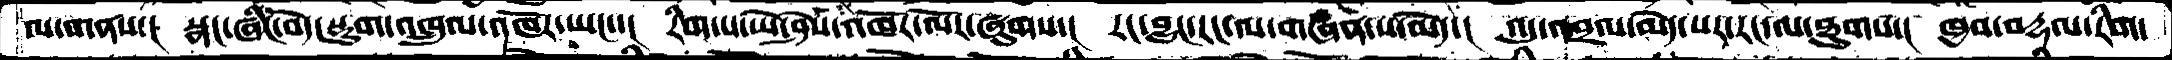ལ་གནས་།  སྣང་ཞིང་བདེ་སྡུག་འཁྲུལ་འཁོར་ཡང་་།  རིག་པ་ཡེ་ཤེས་འཁོར་ལོར་ཞུགས་།  རང་བྱུང་རང་ལ་གཞན་པ་མེད་།  འདུ་འབྲལ་མེད་པར་རང་ལ་ཐུགས་།  ཁྱབ་བརྡལ་རིག་
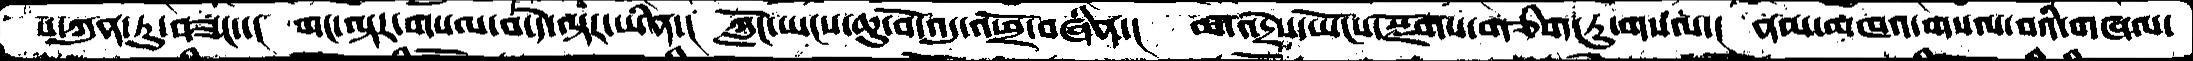པ་ཀུན་ཏུ་བཟང་་།  གང་ལྟར་གསལ་བ་དེ་ལྟར་ཡིན་།  ཀློང་ཡངས་ཆུ་བོ་འདུ་འཕྲོ་བཞིན་།  ཚ་འདྲེས་ཡོངས་སྫོགས་གཅིག་ཏུ་གསལ་།  ནམ་མཁའ་གསལ་བའི་གཞལ་
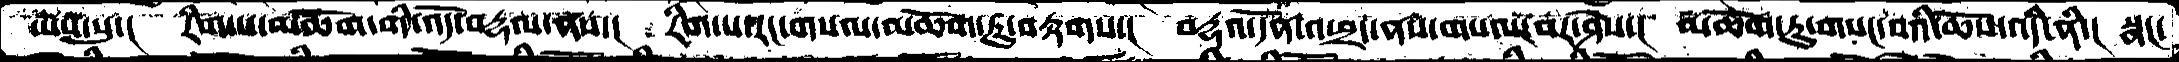ཡས་སུ་།  རིག་པ་མཆོག་གི་འོད་བརྡལ་ནས་།  རིག་པ་རང་གསལ་མཆོག་ཏུ་བརྟགས་།  བརྡའ་དོན་འཕྲད་ནས་གསལ་བར་ཤེས་།  མཆོག་ཏུ་གསང་བའི་ཆོས་འདི་ནི་།  སྣང་
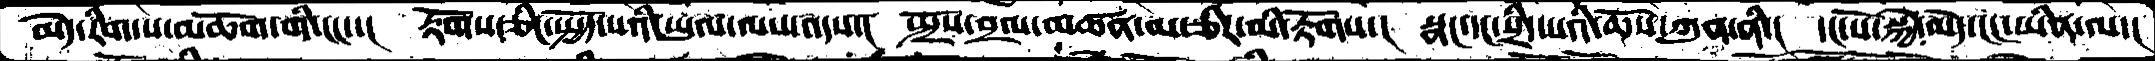མེད་རིག་པ་མཆོག་གི་ངང་་།  རྟོགས་ཅིང་སྤྱོད་པའི་ཡུལ་ལས་འདས་།  སྤྲོས་བྲལ་མཚན་མ་ཅིར་མི་རྟོགས་།  སྣང་དང་སྲིད་པའི་ཆོས་ཀུན་ནི་།  དང་པོ་སྐྱེ་མེད་ངང་ཡིན་ལ་།
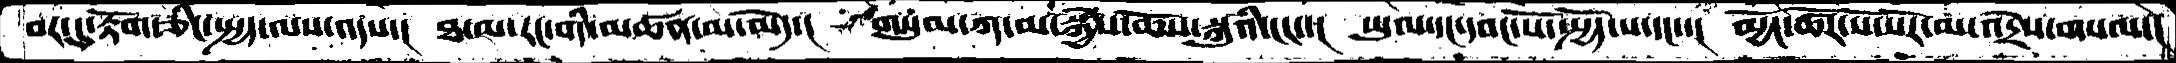བར་དུ་རྟོག་ཅིང་སྤྱད་ལས་འདས་།  ཐ་མ་རང་གི་མཚན་མ་མེད་།  གསུམ་ཀ་མ་སྐྱེས་ཆོས་སྐུའི་ངང་་།  ཡུལ་དང་དབང་པོ་སྤྱོད་པ་དང་་།  མྱོང་ཚོར་སོ་སོར་མ་འདྲེས་གསལ་།
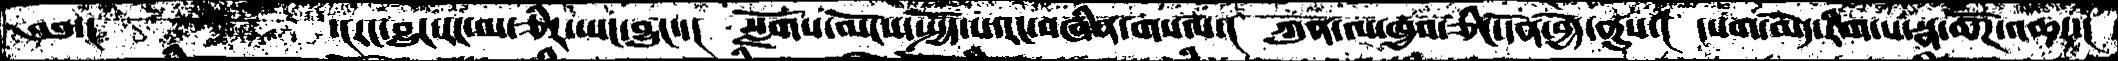༄༅་།  དངརང་འབྱུང་རང་ལ་ཅིར་ཡང་བྱུང་་།  སྫོགས་ལོངས་སྤྱོད་པ་རང་བཞིན་གསལ་།  ཀུན་ལ་ཁྱབ་ཅིང་དོན་བྱེད་ནུས་།  དཔག་མེད་རིག་པ་སྣ་ཚོཌ་འཆར་།
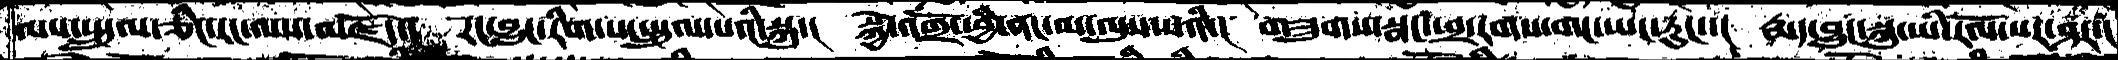ལས་སྤྲུལ་ཅིང་རང་ལས་མཛོད་།  རང་བྱུང་རིག་པ་སྤྲུལ་པའི་སྐུ་།  སྐྱེ་འགྲོ་ཕྱི་ནང་མ་ལུས་པའི་།  གཟུགས་སྣང་ཕྲ་རགས་གང་ཡང་རུང་་།  རྨད་བྱུང་སྐུ་ཡི་རོལ་པར་ཤར་།
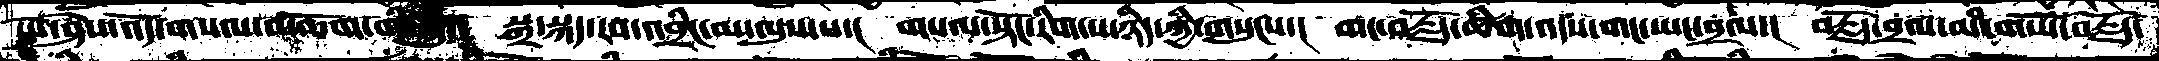ཡེ་ཤེས་འོད་གསལ་མཆོག་གི་སྐུ་།  སྒྲ་སྐད་རབ་འབྲིང་མ་ལུས་པ་།  གསལ་སྟོང་རིག་པ་ཉིད་ཀྱི་གསུངས་།  གང་བརྗོད་ཚིག་འདས་གང་ཡང་བྲལ་།  བརྗོད་བྲལ་མི་གཡོ་བརྗོད་
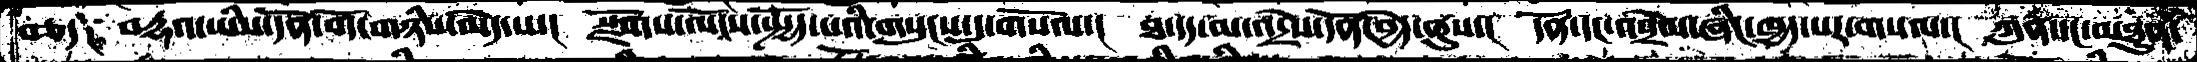བཅད༑  བརྡའ་ཡིས་དོན་གོང་མཉིས་མེད་པ་།  སྫོགས་ལོངས་སྤྱོད་པའི་གསུངས་དུ་གསོལ་།  ཐ་དད་མ་འདྲེས་དོན་བྱེད་ནུས་།  དོན་དང་འབྲེལ་ཞིང་ཁྱད་པར་གསལ་།  ཀུན་དང་མཐུན་
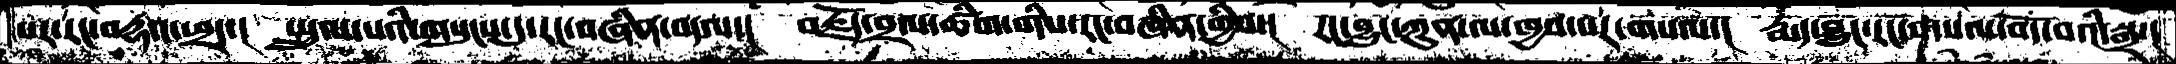པར་རང་བརྡའ་ཕྲད་།  སྤྲུལ་པའི་གསུངས་དུ་རང་བཞིན་བདལ་།  བརྗོད་བྲལ་ཚིག་གིས་རང་བཞིན་གྱིས་།  རང་བྱུང་ཀུན་ལ་ཁྱབ་པར་གསལ་།  རྨད་བྱུང་རང་གསལ་བདོ་བའི་སྒྲ་།
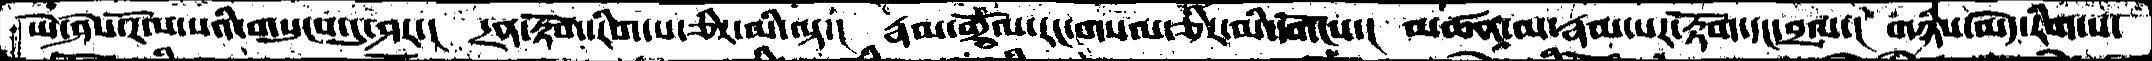ཡེ་ཤེས་རོལ་པའི་གསུངས་དུ་ཤར་།  དྲན་རྟོག་རིག་པ་ཅིར་མི་ལྟ་།  རྣམ་གྲོལ་རང་གསལ་ཅིར་མི་དགོངས་།  མཚན་མ་རྣམ་པར་རྟོག་དང་བྲལ་།  གཉིས་མེད་རིག་པ་
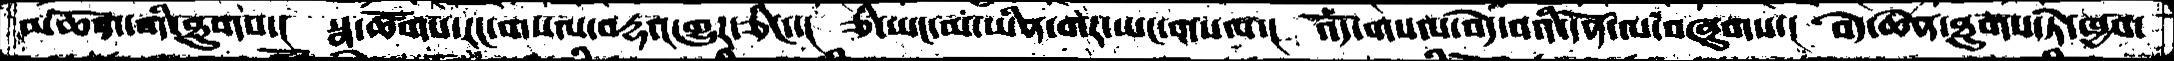མཆོག་གི་ཐུགས་།  སྣ་ཚོགས་རང་གསལ་བརྡའ་གྱུར་ཅིང་།  ཅི་ཡང་མ་ཡིན་གར་ཡང་གསལ་།  འོད་གསལ་བདེ་བའི་དོན་ལ་བཞུགས་།  བདེ་ཆེན་ཐུགས་ཏེ་ཁྱབ་
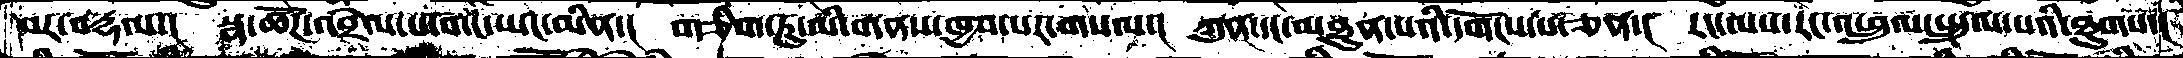བར་བརྡལ་།  སྣ་ཚོཌ་འབྲེལ་པ་གང་ཡང་མིན་།  གཅིག་ཏུ་མི་གནས་ཁྱབ་པར་གསལ་།  ཀུན་དང་མཐུན་པའི་དགོངས་པ་ཅན་།  རང་ལས་རང་འཕྲུལ་སྤྲུལ་པའི་ཐུགས་།
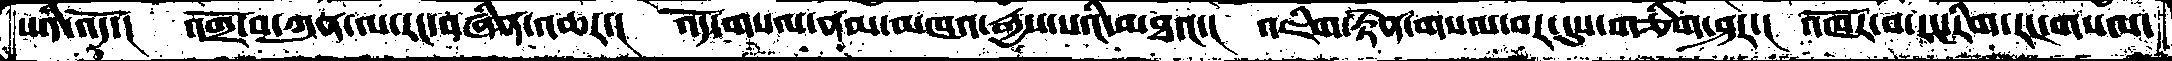པའི་འོད་།  འགྲོ་བ་ཀུན་ལ་རང་བཞིན་འཆར་།  འོད་གསལ་ནམ་མཁའ་རྒྱས་པའི་མཐའ་།  འཇིག་རྟེན་གསལ་བར་དུས་གཅིག་ཤར་།  འཁོར་བ་རང་རིག་རང་གསལ་
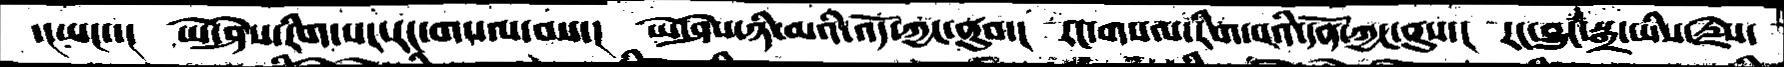་ངཡང་།  ཡེ་ཤེས་རིག་པར་རང་གསལ་བས་།  ཡེ་ཤེས་ཉི་མའི་འོད་ཀྱང་ནུབ་།  རང་གསལ་རིག་པའི་དོན་ཀྱང་ནུས་།  རང་བྱུང་སྒྲ་ཡིས་རྗེས་
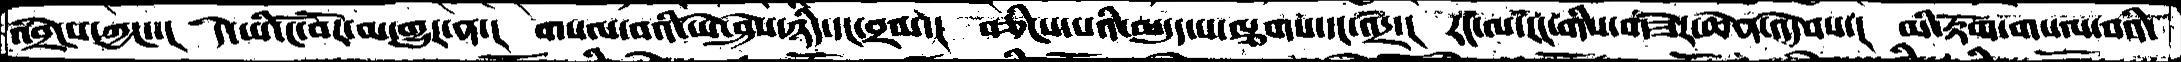འབྲེངས་ཀྱང་་།  དེ་ཡི་ངོ་བོར་མ་གྱུར་ན་།  གསལ་བའི་ཡེ་ཤེས་ཉིད་དང་བྲལ་།  བཅིངས་པའི་མདུད་པ་ལྕགས་དང་འདྲ་།  རང་ལ་རང་གིས་གཟེར་ཆེན་འདེབས་།  མི་རྟོག་གསལ་བའི་
